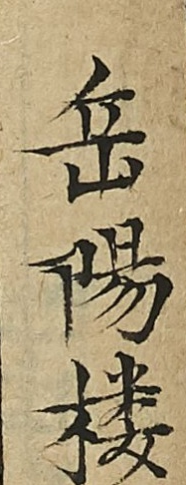岳陽樓
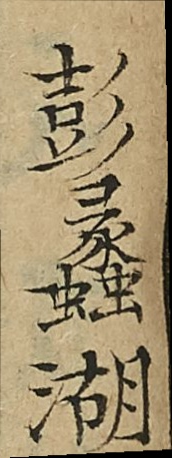彭蠡湖
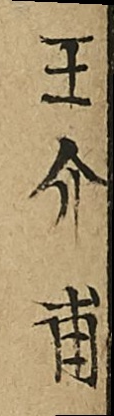王介甫
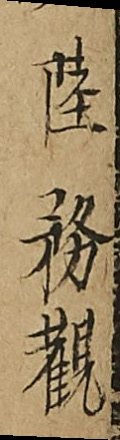陸務觀
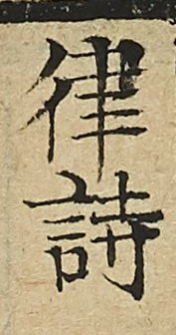律詩
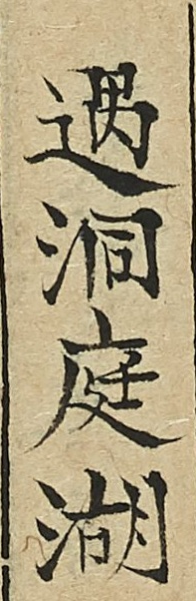過洞庭湖
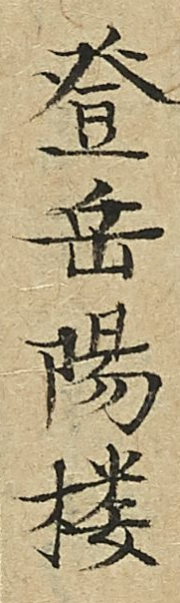登岳陽樓
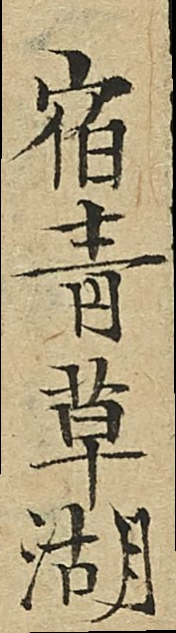宿青草湖
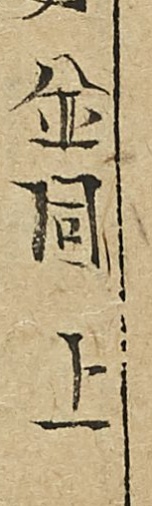並同上
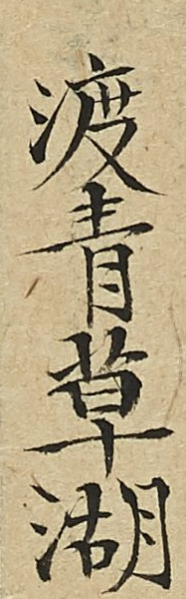渡青草湖
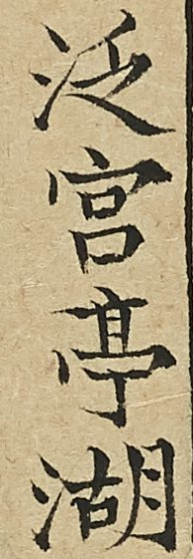泛宫亭湖
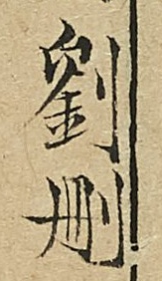劉刪
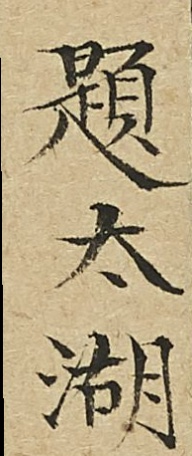题太湖
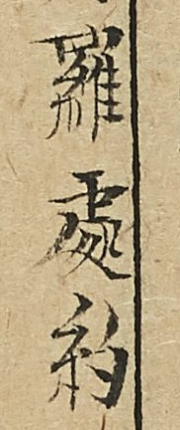羅處約
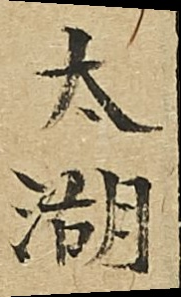太湖
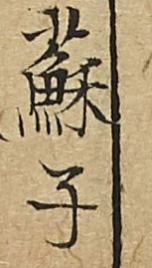蘇子
